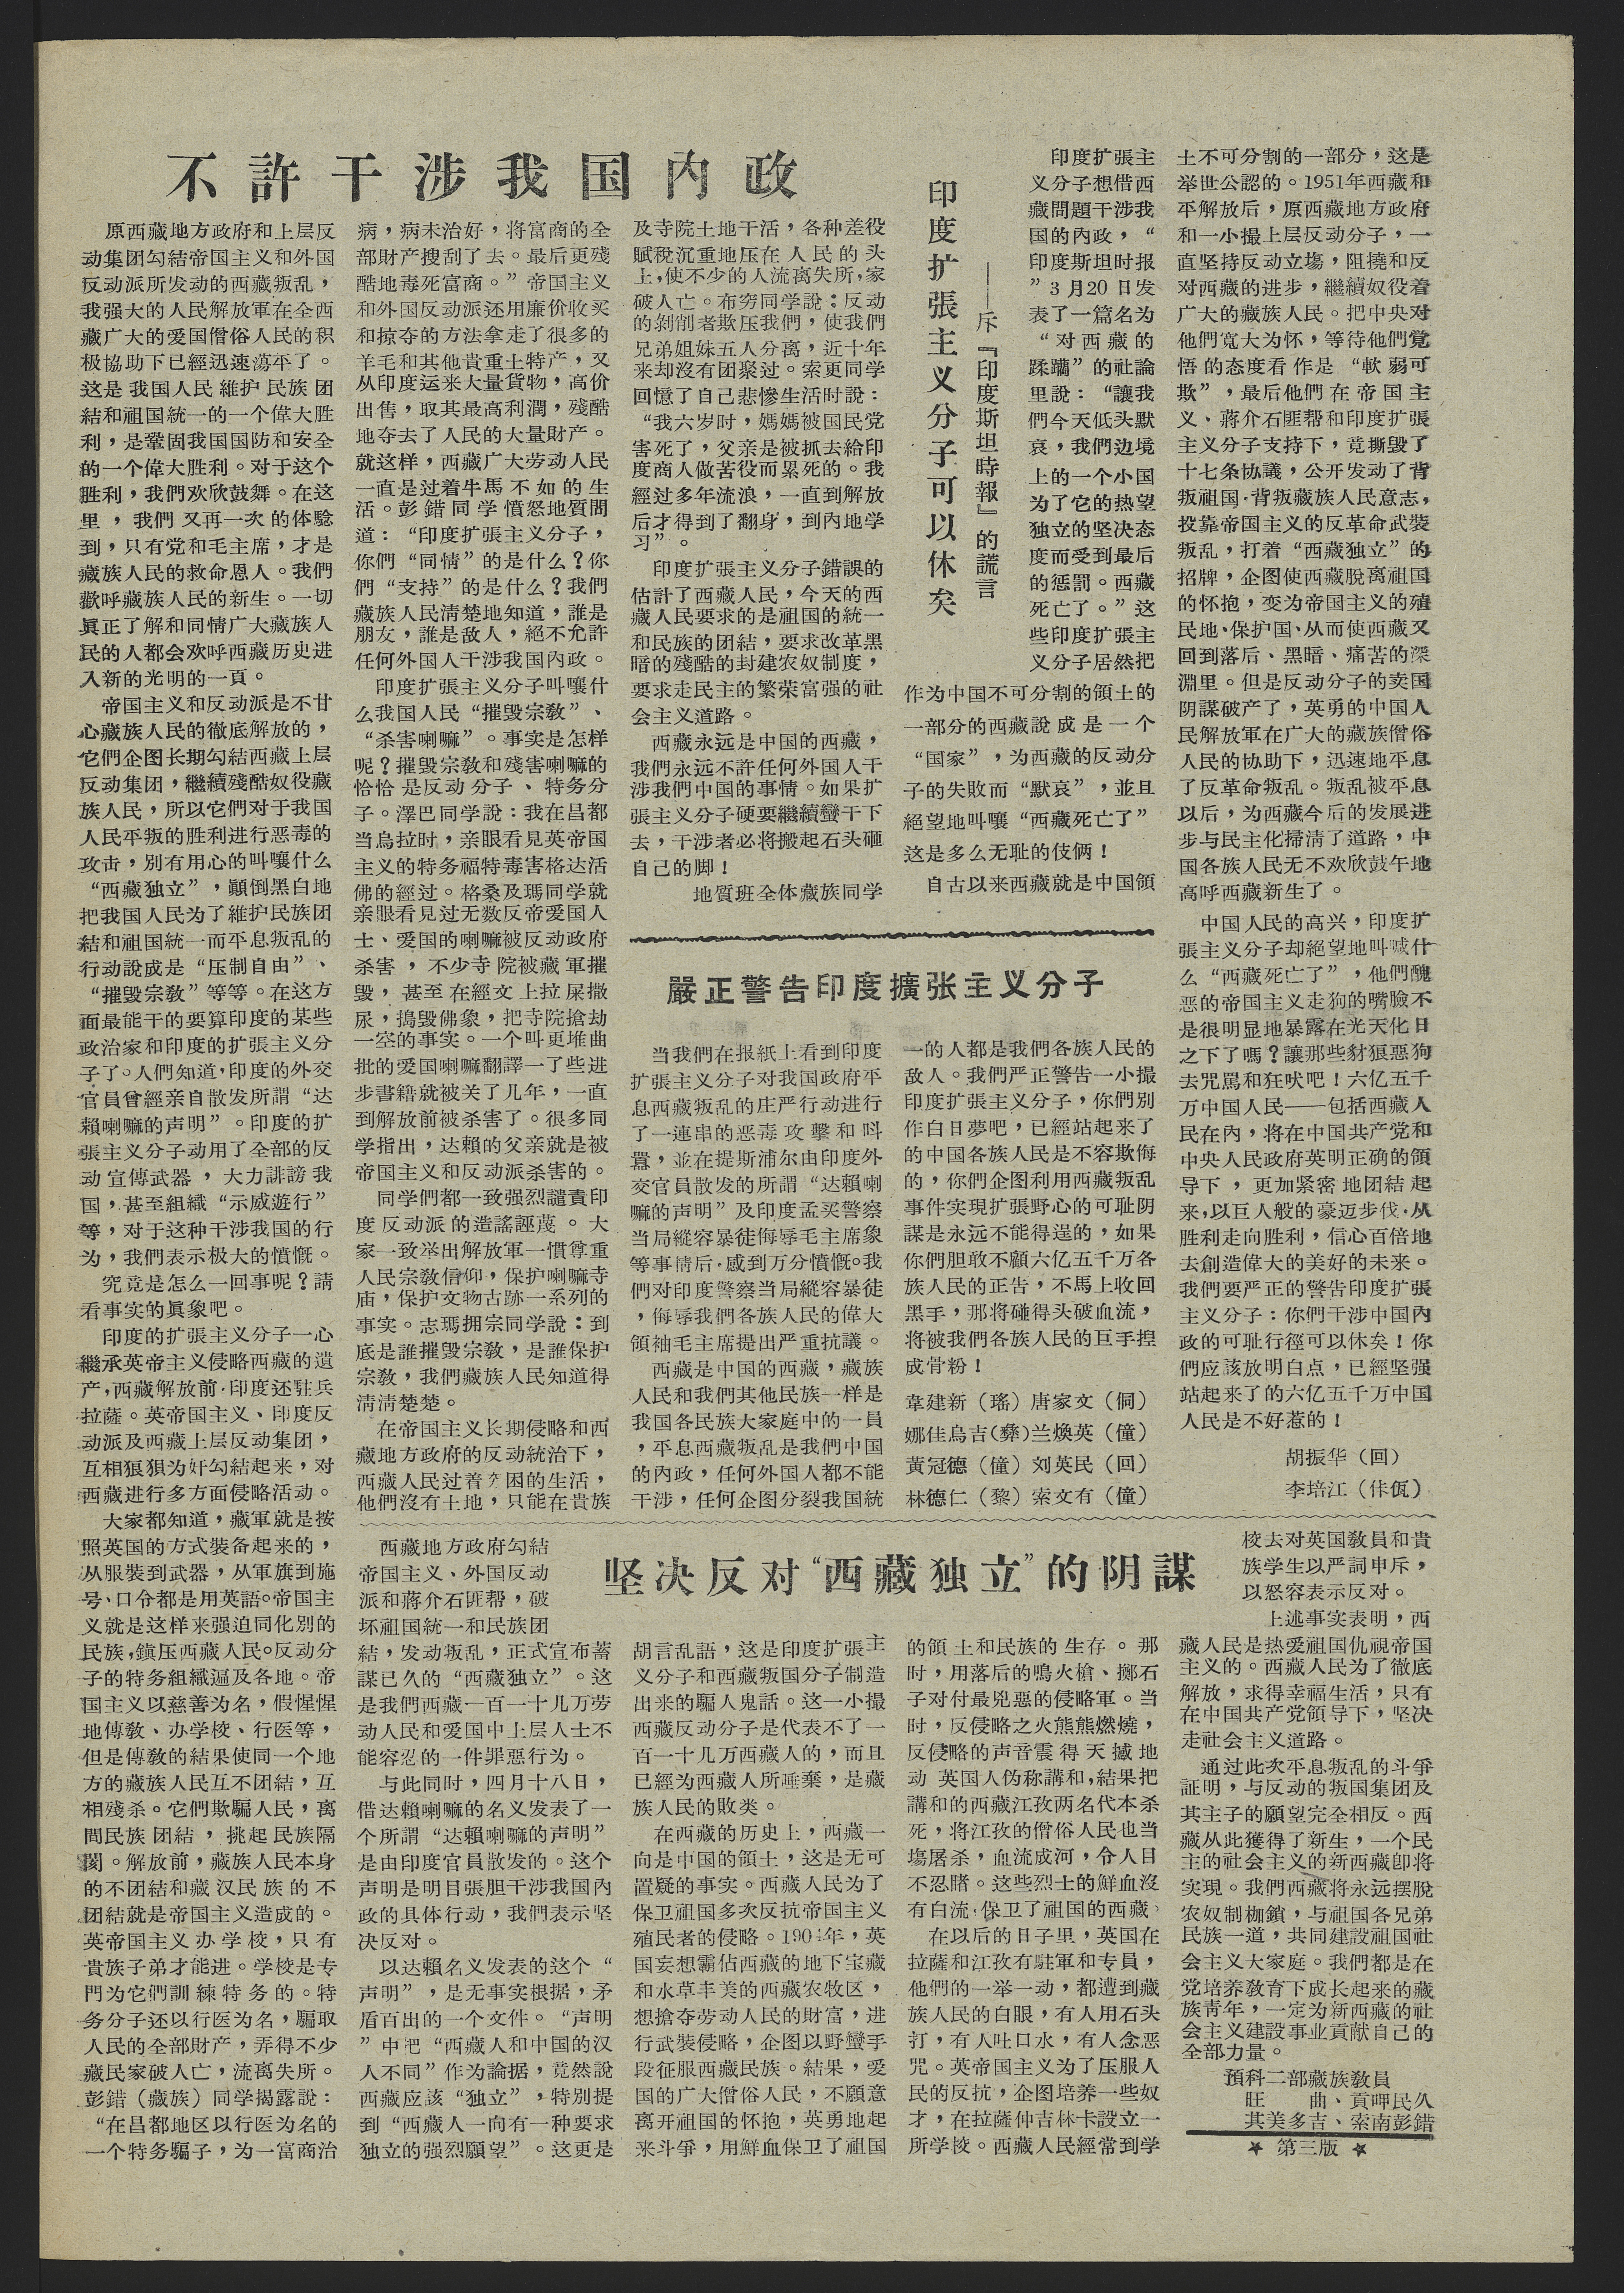不 許 干 涉 我 国 內 政
原西藏地方政府和上层反
动集团勾結帝国主义和外国
反动派所发动的西藏叛乱，
我强大的人民解放軍在全西
藏广大的爱国僧俗人民的积
极協助下已經迅速蕩平了。
这是我国人民維护民族团
結和祖国統一的一个偉大胜
利，是鞏固我国国防和安全
的一个偉大胜利。对于这个
胜利，我們欢欣鼓舞。在这
里，我們 又再一次 的体騐
到，只有党和毛主席，才是
藏族人民的救命恩人。我們
歡呼藏族人民的新生。一切
眞正了解和同情广大藏族人
民的人都会欢呼西藏历史进
入新的光明的一頁。
帝国主义和反动派是不甘
心藏族人民的徹底解放的，
它們企图长期勾結西藏上层
反动集团，繼續殘酷奴役藏
族人民，所以它們对于我国
人民平叛的胜利进行恶毒地
攻击，别有用心的叫嚷什么
“西藏独立”，顚倒黑白地
把我国人民为了維护民族团
結和祖国統一而平息叛乱的
行动說成是 “压制自由”、
“摧毁宗敎”等等。在这方
面最能干的要算印度的某些
政治家和印度的扩張主义分
子了。人們知道，印度的外交
官員曾經亲自散发所謂“达
賴喇嘛的声明”。印度的扩
張主义分子动用了全部的反
动 宣傳武器 ，大力誹謗我
国，甚至組織“示威游行”
等，对于这种干涉我国的行
为，我們表示极大的憤慨。
究竟是怎么一回事呢？請
看事实的眞象吧。
印度的扩張主义分子一心
繼承英帝主义靑略西藏的遺
产，西藏解放前，印度还駐兵
拉薩。英帝国主义、印度反
动派及西藏上层反动集团，
互相狼狽为奸勾結起来，对
西藏进行多方面侵略活动。
大家都知道，藏軍就是按
照英国的方式装备起来的，
从服装到武器，从軍旗到施
号、口令都是用英語。帝国主
义就是这样来强迫同化别的
民族，鎭压西藏人民。反动分
子的特务組織遍及各地。帝
国主义以慈善为名，假惺惺
地傳敎、办学校、行医等，
但是傳敎的結果使同一个地
方的藏族人民互不团結，互
相殘杀。它們欺騙人民，离
間民族团結，挑起民族隔
閡。解放前，藏族人民本身
的不团結和藏汉民族的不
团結就是帝国主义造成的。
英帝国主义办学校，只 有
貴族子弟才能进。学校是专
門为它們訓練特务的。特
务分子还以行医为名，騙取
人民的全部財产，弄得不少
藏民家破人亡，流离失所。
彭錯（藏族）同学揭露說：
“在昌都地区以行医为名的
一个特务騙子，为一富商治
病，病未治好，将富商的全
部財产搜刮了去。最后更殘
酷地毒死富商。”帝国主义
和外国反动派还用廉价收买
和掠夺的方法拿走了很多的
羊毛和其他貴重土特产，又
从印度运来大量貨物，高价
出售，取其最高利潤，殘酷
地夺去了人民的大量財产。
就这样，西藏广大劳动人民
一直是过着牛馬不如的生
活。彭錯同学憤怒地質問
道：“印度扩張主义分子，
你們“同情”的是什么？你
們“支持”的是什么？我們
藏族人民清楚地知道，誰是
朋友，誰是敌人，絕不允許
任何外国人干涉我国内政。
印度扩張主义分子叫嚷什
么我国人民“摧毀宗敎”、
“杀害喇嘛”。是事实怎样
呢？摧毀宗敎和殘害喇嘛的
恰恰是反动分子、特务分
子。澤巴同学說：我在昌都
当烏拉时，亲眼看見英帝国
主义的特务福特毒害格达活
佛的經过。格桑及瑪同学就
亲眼看見过无数反帝爱国人
士、爱国的喇嘛被反动政府
杀害，不少寺院被藏軍摧
毁，甚至在經文上拉屎撒
尿，搗毀佛象，把寺院搶劫
一空的事实。一个叫更堆曲
批的爱国喇嘛翻譯一了些进
步書籍就被关了几年，一直
到解放前被杀害了。很多同
学指出，达賴的父亲就是被
帝国主义和反动派杀害的。
同学們都一致强烈譴責印
度反动派的造謠誣蔑。大
家一致举出解放軍一慣尊重
人民宗敎信仰，保护喇嘛寺
庙，保护文物古跡一系列的
事实。志瑪拥宗同学說：到
底是誰摧毀宗敎，是誰保护
宗敎，我們藏族人民知道得
清清楚楚。
在帝国主义长期侵略和西
藏地方政府的反动統治下，
西藏人民过着穷困的生活，
他們沒有土地，只能在貴族
及寺院土地干活，各种差役
賦稅沉重地压在人民的头
上，使不少的人流离失所，家
破人亡。布穷同学說：反动
的剝削者欺压我們，使我們
兄弟姐妹五人分离，近十年
来却沒有团聚过。索更同学
回憶了自己悲慘生活时說：
“我六岁时，媽媽被国民党
害死了，父亲是被抓去給印
度商人作苦役而累死的。我
經过多年流浪，一直到解放
后才得到了翻身，到内地学
习”。
印度扩張主义分子錯誤的
估計了西藏人民，今天的西
藏人民要求的是祖国的統一
和民族的团結，要求改革黑
暗的殘酷的封建农奴制度，
要求走民主的繁荣富强的社
会主义道路。
西藏永远是中国的西藏，
我們永远不許任何外国人干
涉我們中国的事情。如果扩
張主义分子硬要繼續蠻干下
去，干涉者必将搬起石头砸
自己的脚！
地質班全体藏族同学
印度扩張主义分子可以休矣
——斥『印度斯坦時報』的謊言
印度扩張主
义分子想借西
藏問題干涉我
国的内政，“
印度斯坦时报
”3月20日发
表了一篇名为
“对西藏的
蹂躪”的社論
里說：“讓我
們今天低头默
哀，我們边境
上的一个小国
为了它的热望
独立的坚决态
度而受到最后
的惩罰。西藏
死亡了。”这
些印度扩張主
义分子居然把
作为中国不可分割的領土的
一部分的西藏說成是一个
“国家”，为西藏的反动分
子的失敗而“默哀”，並且
絕望地叫嚷“西藏死亡了”
这是多么无耻的伎俩！
自古以来西藏就是中国領
土不可分割的一部分，这是
举世公認的。1951年西藏和
平解放后，原西藏地方政府
和一小撮上层反动分子，一
直坚持反动立塲，阻撓和反
对西藏的进步，繼續奴役着
广大的藏族人民。把中央对
他們寬大为怀，等待他们覚
悟的态度看作是“軟弱可
欺”，最后他們在帝国主
义、蒋介石匪帮和印度扩張
主义分子支持下，竟撕毀了
十七条协議，公开发动了背
叛祖国，背叛藏族人民意志，
投靠帝国主义的反革命武装
叛乱，打着“西藏独立”的
招牌，企图使西藏脫离祖国
的怀抱，变为帝国主义的殖
民地、保护国、从而使西藏又
回到落后、黑暗、痛苦的深
淵里。但是反动分子的卖国
阴謀破产了，英勇的中国人
民解放軍在广大的藏族僧俗
人民的协助下，迅速地平息
了反革命叛乱。叛乱被平息
以后，为西藏今后的发展进
步与民主化掃清了道路，中
国各族人民无不欢欣鼓午地
高呼西藏新生了。
中国人民的高兴，印度扩
張主义分子却絕望地叫喊什
么“西藏死亡了”，他們醜
恶的帝国主义走狗的嘴臉不
是很明显地暴露在光天化日
之下了嗎？讓那些豺狼惡狗
去咒罵和狂吠吧！六亿五千
万中国人民——包括西藏人
民在内，将在中国共产党和
中央人民政府英明正确的領
导下，更加紧密地团結起
来，以巨人般的豪迈步伐，从
胜利走向胜利，信心百倍地
去創造偉大的美好的未来。
我們要严正的警告印度扩張
主义分子：你們干涉中国内
政的可耻行徑可以休矣！你
們应該放明白点，已經坚强
站起来了的六亿五千万中国
人民是不好惹的！
胡振华（回）
李培江（佧佤）
嚴正警告印度擴张主义分子
当我們在报紙上看到印度
扩張主义分子对我国政府平
息西藏叛乱的庄严行动进行
了一連串的恶毒攻擊和呌
囂，並在提斯浦尔由印度外
交官員散发的所謂“达賴喇
嘛的声明”及印度孟买警察
当局縱容暴徒侮辱毛主席象
等事情后，感到万分憤慨。我
們对印度警察当局縱容暴徒
，侮辱我們各族人民的偉大
領袖毛主席提出严重抗議。
西藏是中国的西藏，藏族
人民和我們其他民族一样是
我国各民族大家庭中的一員
，平息西藏叛乱是我們中国
的内政，任何外国人都不能
干涉，任何企图分裂我国統
一的人都是我們各族人民的
敌人。我們严正警告一小撮
印度扩張主义分子，你們别
作白日夢吧，已經站起来了
的中国各族人民是不容欺侮
的，你們企图利用西藏叛乱
事件实現扩張野心的可耻阴
謀是永远不能得逞的，如果
你們胆敢不顧六亿五千万各
族人民的正告，不馬上收回
黑手，那将碰得头破血流，
将被我們各族人民的巨手捏
成骨粉！
韋建新（瑤）唐家文（侗）
娜佳烏吉（彝）兰煥英（僮）
黃冠德（僮）刘英民（回）
林德仁（黎）索文有（僮）
坚决反对“西藏独立”的阴謀
西藏地方政府勾結
帝国主义、外国反动
派和蔣介石匪帮，破
坏祖国統一和民族团
結，发动叛乱，正式宣布蓄
謀已久的“西藏独立”。这
是我們西藏一百一十几万劳
动人民和爱国中上层人士不
能容忍的一件罪惡行为。
与此同时，四月十八日，
借达賴喇嘛的名义发表了一
各所謂“达賴喇嘛的声明”
是由印度官員散发的。这个
声明是明目張胆干涉我国内
政的具体行动，我們表示坚
决反对。
以达賴名义发表的这个“
声明”，是无事实根据，矛
盾百出的一个文件。“声明
”中把“西藏人和中国的汉
人不同”作为論据，竟然說
西藏应該“独立”，特别提
到“西藏人一向有一种要求
独立的强烈願望”。这更是
胡言乱語，这是印度扩張主
义分子和西藏叛国分子制造
出来的騙人鬼話。这一小撮
西藏反动分子是代表部了一
百一十几万西藏人的，而且
已經为西藏人所唾棄，是藏
族人民的敗类。
在西藏的历史上，西藏一
向是中国的領土，这是无可
置疑的事实。西藏人民为了
保卫祖国多次反抗帝国主义
殖民者的侵略。1904年，英
国妄想霸佔西藏的地下宝藏
和水草丰美的西藏农牧区，
想搶夺劳动人民的財富，进
行武装侵略，企图以野蠻手
段征服西藏民族。結果，爱
国的广大僧俗人民，不願意
离开祖国的怀抱，英勇地起
来斗爭，用鮮血保卫了祖国
的領土和民族的生存。那
时，用落后的鳴火槍、擲石
子对付最兇惡的侵略軍。当
时，反侵略之火熊熊燃燒，
反侵略的声音震得天撼地
动英国人伪称講和，結果把
講和的西藏江孜两名代本杀
死，将江孜的僧俗人民也当
塲屠杀，血流成河，令人目
不忍睹。这些烈士的鮮血沒
有白流，保卫了祖国的西藏。
在以后的日子里，英国在
拉薩和江孜有駐軍和专員，
他們的一举一动，都遭到藏
族人民的白眼，有人用石头
打，有人吐口水，有人念恶
咒。英帝国主义为了压服人
民的反抗，企图培养一些奴
才，在拉薩仲吉林卡設立一
所学校。西藏人民經常到学
校去对英国敎員和貴
族学生以严詞申斥，
以怒容表示反对。
上述事实表明，西
藏人民是热爱祖国仇視帝国
主义的。西藏人民为了徹底
解放，求得幸福生活，只有
在中国共产党領导下，坚决
走社会主义道路。
通过此次平息叛乱的斗爭
証明，与反动的叛国集团及
其主子的願望完全相反。西
藏从此獲得了新生，一个民
主的社会主义的新西藏卽將
实現。我們西藏将永远摆脫
农奴制枷鎖，与祖国各兄弟
民族一道，共同建設祖国社
会主义大家庭。我們都是在
党培养敎育下成长起来的藏
族靑年，一定为新西藏的社
会主义建設事业貢献自己的
全部力量。
預科二部藏族敎員
旺 曲、貢呷民久
其美多吉、索南彭錯
★ 第三版 ★
